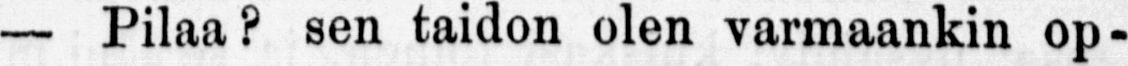— Pilaa? sen taidon olen varmaankin op-
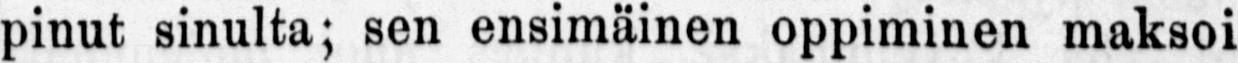pinut sinulta; sen ensimäinen oppiminen maksoi
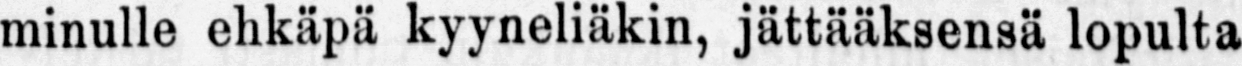minulle ehkäpä kyyneliäkin, jättääksensä lopulta
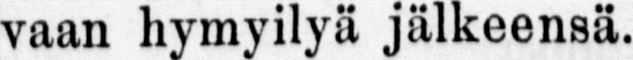vaan hymyily ä jälkeensä.
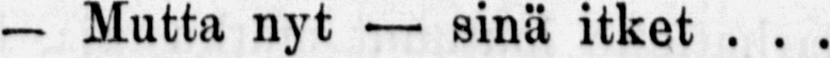— Mutta nyt — sinä itket . . .
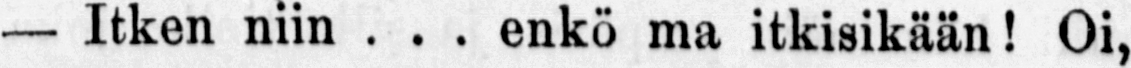— Itken niin . . . enkö ma itkisikään! Oi,
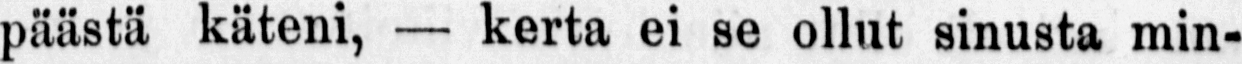päästä käteni, — kerta ei se ollut sinusta min-
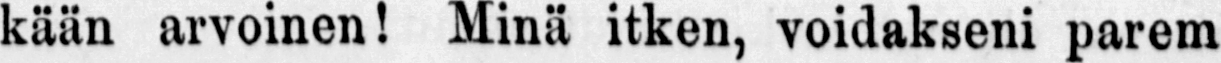kään arvoinen! Minä itken, voidakseni parem
